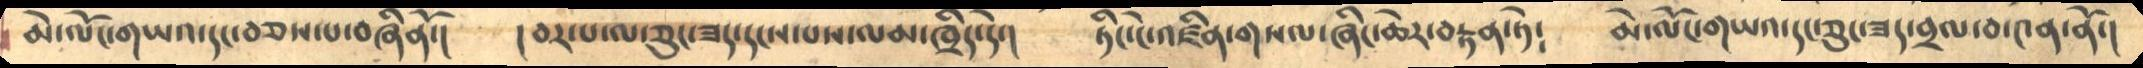མེ་ལོང་གཡའ་དང་བཅས་པ་བཞིནོ་།     །བར་པ་ལ་ཅུང་ཟད་དངས་པས་ལམ་ཁྲིད་དེ་།    ཏིང་ངེ་འཛིན་གསལ་ཞིང་ཆེར་བརྟན་ཏེ་     མེ་ལོང་གཡའ་དང་ཅུང་ཟད་བྲལ་བ་༤ན་ནོ་།
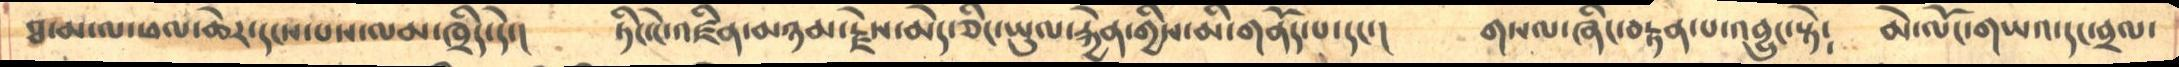ཐ་མ་ལ་ཕལ་ཆེར་དངས་པས་ལམ་ཁྲིད་དེ་།   ཏིང་ངེ་འཛིན་མཉམ་རྗེས་མེད་ཅིང་ཡུལ་རྐྱེན་གྱིས་མི་གནོད་པ་དང་།   གསལ་ཞིང་བརྟན་པ་འབྱུང་སྟེ༴     མེ་ལོང་གཡའ་དང་བྲལ་
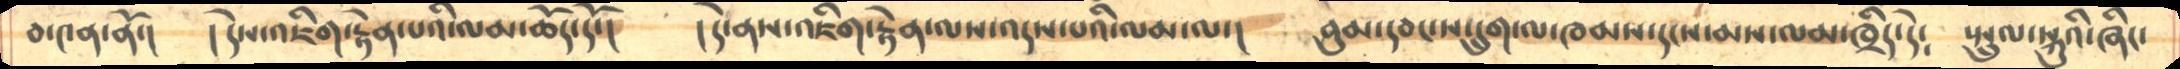བ་༤ན་ནོ་།     །དེས་འཇིག་རྟེན་པའི་ལམ་ཆོད་དོ་།     །དེ་ནས་འཇིག་རྟེན་ལས་འདས་པའི་ལམ་ལ་།    བུམ་དབང་ས་དྲུག་ལ་ཁམས་དངས་མས་ལམ་ཁྲིད་དེ༴     སྤྲུལ་སྐུའི་ཞིང་
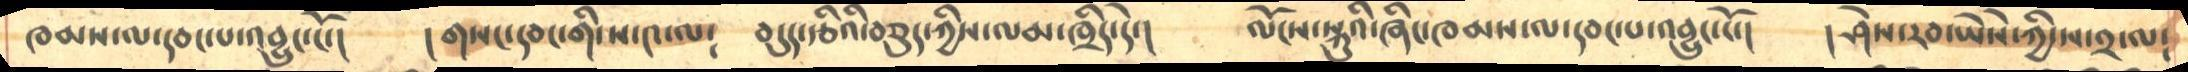ཁམས་ལ་དབང་པ་འབྱུང་ངོ་།     །གསང་དབང་གི་ས་༤་ལ༴    བདུད་རྩིའི་བཅུད་ཀྱིས་ལམ་ཁྲིད་དེ་།    ལོངས་སྐུའི་ཞིང་ཁམས་ལ་དབང་པ་འབྱུང་ངོ་།      ། ཤེས་རབ་ཡཻས་ཀྱི་ས་༢་ལ༴
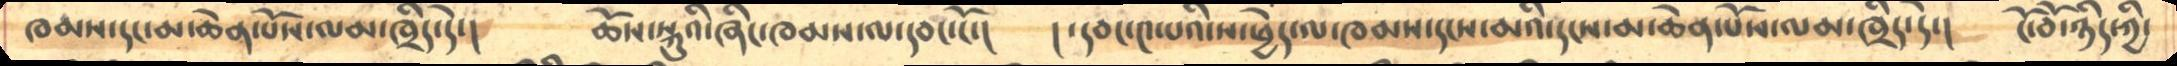ཁམས་དང་མ་ཆེན་པོས་ལམ་ཁྲིད་དེ་།    ཆོས་སྐུའི་ཞིང་ཁམས་ལ་དབང་ངོ་།    །་དབང་༤་པའི་ས་ཕྱེད་ལ་ཁམས་དངས་མའི་དངས་མ་ཆེན་པོས་ལམ་ཁྲིད་དེ་།   ངོ་བོ་ཉིད་ཀྱི་
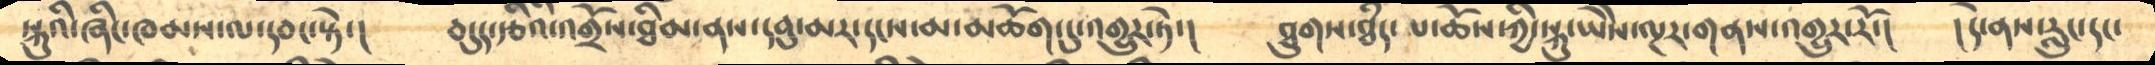སྐུའི་ཞིང་ཁམས་ལ་དབང་སྟེ་།    བདུད་རྩིའི་འགྲོས་ཐིམ་ནས་དབུ་མར་དངས་མ་མཆོག་དུ་འགྱུར་ཏེ་།    ཐུགས་ཐཾད་པ་ཆོས་ཀྱི་སྐུ་ཡཻས་ལྔར་གནས་འགྱུར་རོ་།    །དེ་ནས་རླུང་དང་
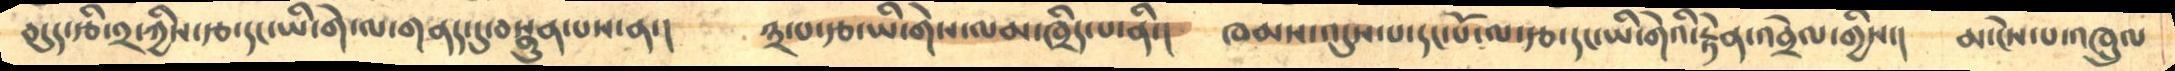བདུད་རྩི་༢་ཀྱིས་རྩ་དང་ཡི་གེ་ལ་གནད་དུ་བསྣུན་པས་ན་།     ༣་པ་རྩ་ཡི་གེས་ལམ་ཁྲིད་པ་ནི་།   ཁམས་འདུས་པ་དང་པོ་ལ་རྩ་དང་ཡི་གེའི་རྟེན་འབྲེལ་གྱིས་།    མ་ངེས་པ་འཁྲུལ
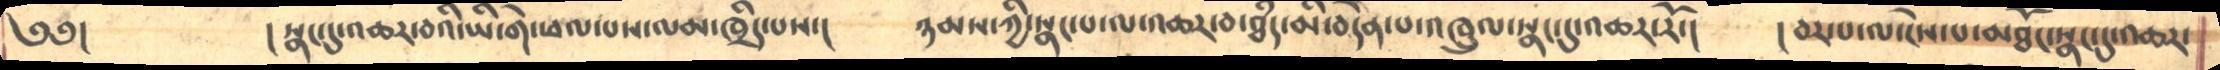༄༅།          །སྣང་དུ་འཆར་བའི་ཡི་གེ་ཕལ་པས་ལམ་ཁྲིད་པས་།   ཉམས་ཀྱི་སྣང་པ་ལ་འཆར་བ་ཐཾད་མི་བདེན་པ་འཁྲུལ་སྣང་དུ་འཆར་རོ་།     །བར་པ་ལ་ངེས་པ་མཐོང་སྣང་དུ་འཆར་
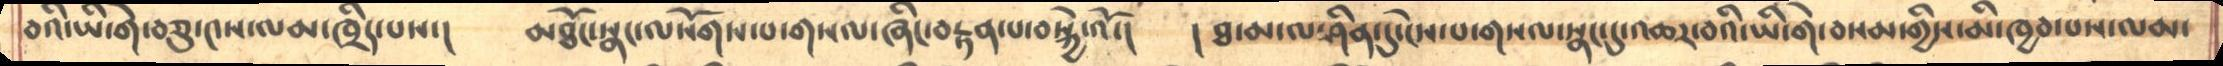བའི་ཡི་གེ་བཅུ་༤ས་ལམ་ཁྲིད་པས་།    མཐོང་སྣང་ལསོགས་པ་གསལ་ཞིང་བརྟན་པ་བསྐྱེ་འོ་།   །ཐ་མ་ལ་ཤིན་དུ་ངེས་པ་གསལ་སྣང་དུ་འཆར་བའི་ཡི་གེ་བསམ་གྱིས་མི་ཁྱབ་པས་ལམ་
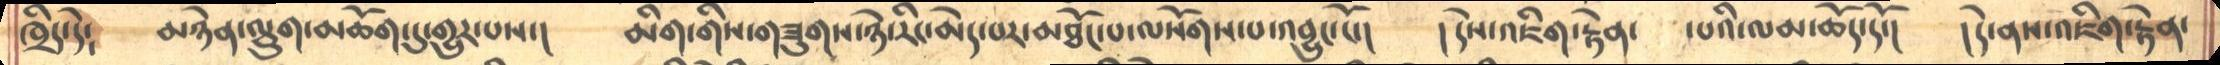ཁྲིད་དེ༴    མཉེན་ལྕུག་མཆོག་དུ་གྱུར་པས་།   མིག་གིས་གཟུགས་ཉེ་རིང་མེད་པར་མཐོང་པ་ལསོགས་པ་འབྱུང་ངོ་།    །དེས་འཇིག་རྟེན་    ་པའི་ལམ་ཆོད་དོ་།  །དེ་ནས་འཇིག་རྟེན་
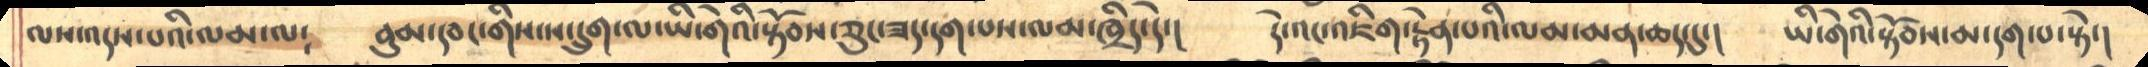ལས་འདས་པའི་ལམ་ལ༴    བུམ་དབང་གིས་ས་དྲུག་ལ་ཡི་གེའི་སྟོབས་ཅུང་ཟད་དག་པས་ལམ་ཁྲིད་དེ་།     དེ་འང་འཇིག་རྟེན་པའི་ལམ་མན་ཆད་དུ་།    ཡི་གེའི་སྟོབས་མ་དག་པ་སྟེ་།
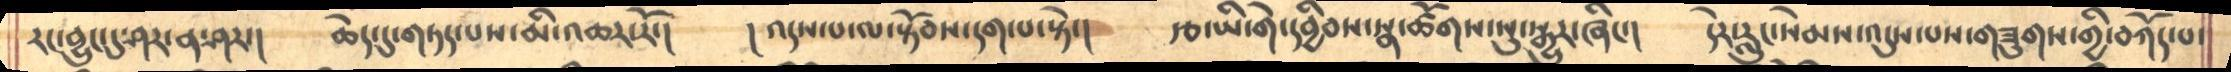རང་བྱུང་དུ་ཤར་ན་ཤར་།     ཆེད་དུ་གཏད་པས་མི་འཆར་རོ་།    །འདས་པ་ལ་སྟོབས་དག་པ་སྟེ་།    རྩ་ཡི་གེ་དབྱིབས་སྣ་ཚོགས་སུ་སྒྱུར་ཞིང་།   དེར་རླུང་སེམས་འདུས་པས་གཟུགས་གྱི་བཀོད་པ་
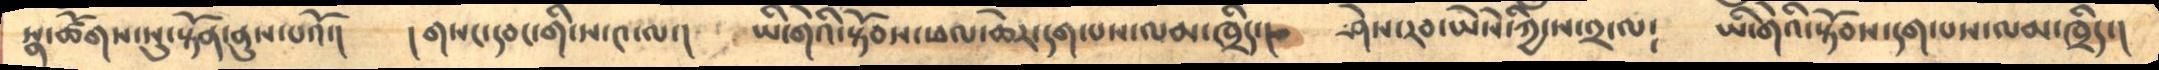སྣ་ཚོགས་སུ་སྟོན་ནུས་པའོ་།    །གསང་དབང་གི་ས་༤་ལ་།   ཡི་གེའི་སྟོབས་ཕལ་ཆེར་དག་པས་ལམ་ཁྲིད་།   ཤེས་རབ་ཡཻས་ཀྱི་ས་༢་ལ༴   ཡི་གེའི་སྟོབས་དག་པས་ལམ་ཁྲིད་།
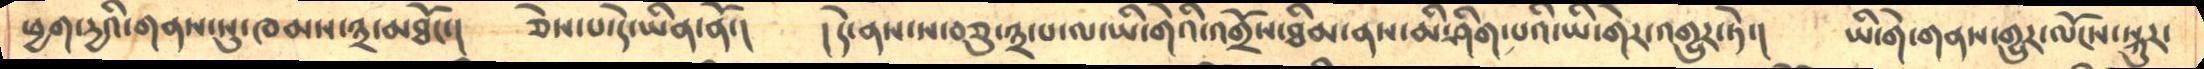ཕྱག་དྱའི་གནས་སུ་ཁམས་༣་མཐོང་།    ཅེས་པ་དེ་ཡིན་ནོ་།   །དེ་ནས་ས་བཅུ་༣་པ་ལ་ཡི་གེའི་འགྲོས་ཐིམ་ནས་མི་ཤིག་པའི་ཡི་གེར་འགྱུར་ཏེ་།     ཡི་གེ་གནས་གྱུར་ལོངས་སྐུར་
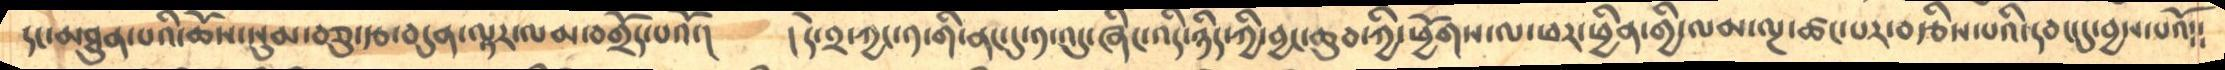དང་མཐུན་པའི་ཆོས་སུམ་བཅུ་རྩ་བདུན་ལྟར་ལམ་བགྲོད་པའོ་།    །དེ་༢་ཀྱང་༡་གི་ནང་དུ་འདུ་ཞིང་འདི་ཉིད་ཀྱི་བྱང་ཆུབ་ཀྱི་ཕྱོགས་ལ་ཕར་ཕྱིན་གྱི་ལམ་ལྔ་ཚང་པར་བརྩིས་པའི་དབང་དུ་བྱས་པའོ༴༴
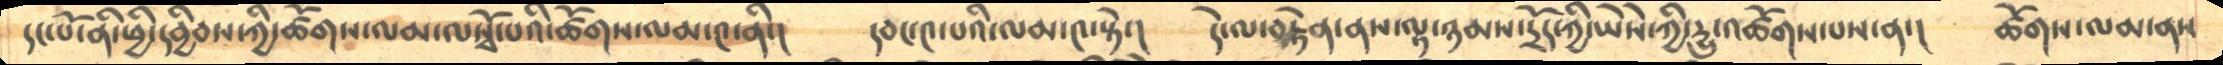དང་པོ་ནི་ཕྱི་དབྱིབས་ཀྱི་ཚོགས་ལམ་ལསྭོ་པའི་ཚོགས་ལམ་༤་ནི་།     དབང་༤་པའི་ལམ་༤་སྟེ་།    དེ་ལ་བརྟེན་ནས་ལྟ་ཉམས་དྲོད་ཀྱི་ཡཻས་ཀྱི་དྱུ་འཚོགས་པས་ན་།   ཚོགས་ལམ་ནས
